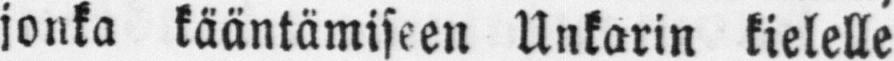jonka kääntämiseen Unkarin kielelle
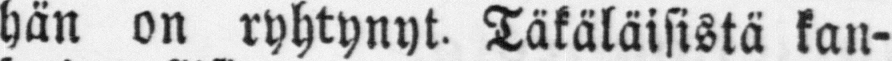hän on ryhtynyt. Täkäläisistä kan-
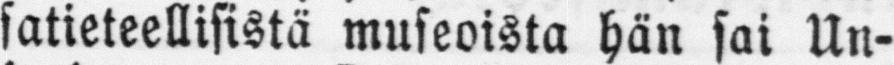satieteellisistä museoista hän sai Un-
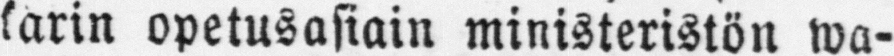karin opetusasiain ministeristön wa-
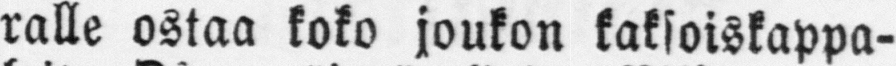ralle ostaa koko joukon kaksoiskappa-
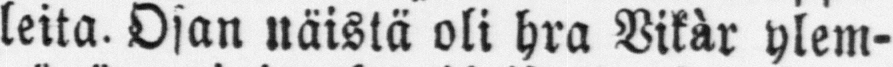leita. Osan näistä oli hra Vikár ylem-
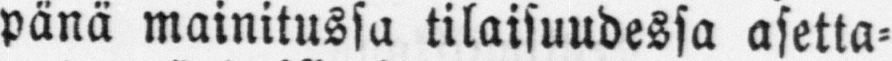pänä mainitussa tilaisuudessa asetta-
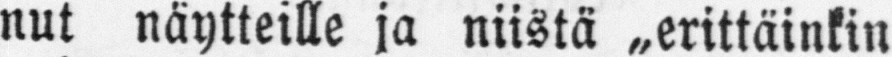nut näytteille ja niistä „erittäinkin
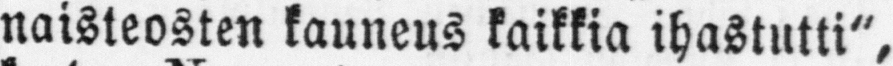naisteosten kauneus kaikkia ihastutti",
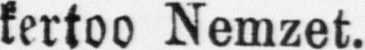kertoo Nemzet.
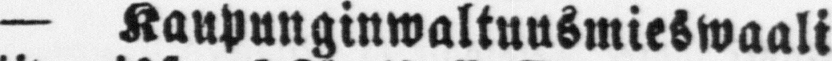— Kaupunginwaltuusmieswaali
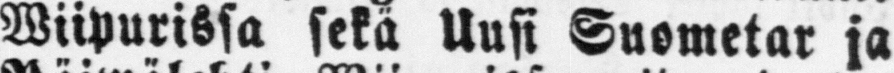Wiipurissa sekä Uusi Suometar ja
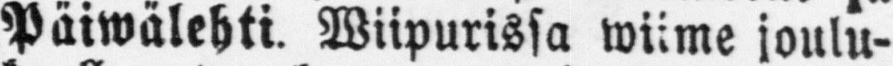Päiwälehti. Wiipurissa wiime joulu-
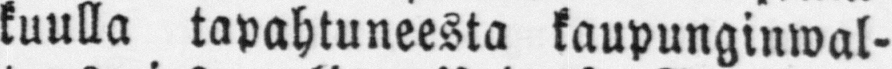kuulla tapahtuneesta kaupunginwal-
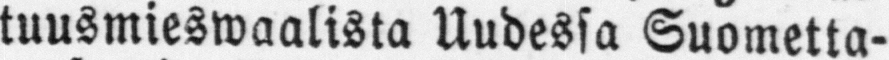tuusmieswaalista Uudessa Suometta-
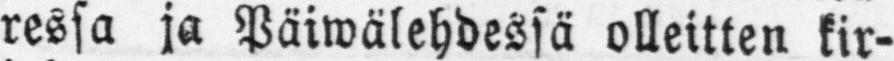ressa ja Päiwälehdessä olleitten kir-
